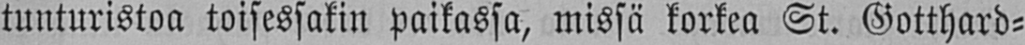tunturistoa toisessakin paikassa, missä korkea St. Gotthard-
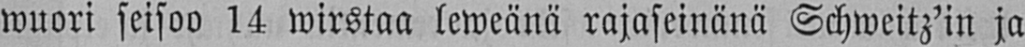wuori seisoo 14 wirstaa leweänä rajaseinänä Schweitz'in ja
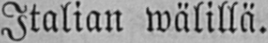Italian wälillä.
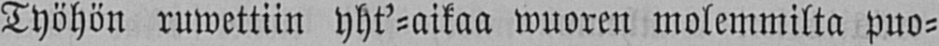Työhön ruwettiin yht'-aikaa wuoren molemmilta puo-
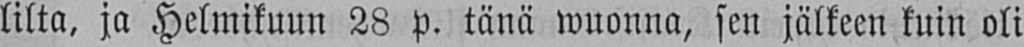lilta, ja Helmikuun 28 p. tänä wuonna, sen jälkeen kuin oli
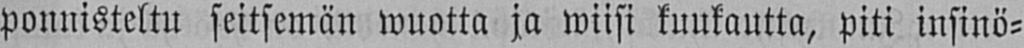ponnisteltu seitsemän wuotta ja wiisi kuukautta, piti insinö-
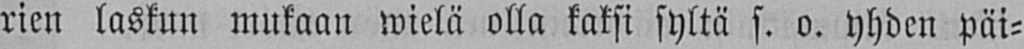rien laskun mukaan wielä olla kaksi syltä s. o. yhden päi-
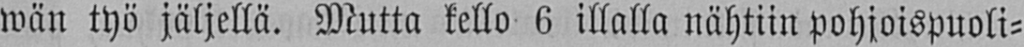wän työ jäljellä. Mutta kello 6 illalla nähtiin pohjoispuoli-
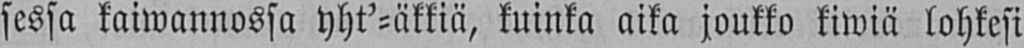sessa kaiwannossa yht'-äkkiä, kuinka aika joukko kiwiä lohkesi
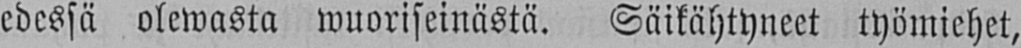edessä olewasta wuoriseinästä. Säikähtyneet työmiehet,
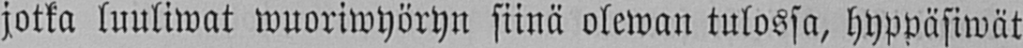jotka luuliwat wuoriwyöryn siinä olewan tulossa, hyppäsiwät
